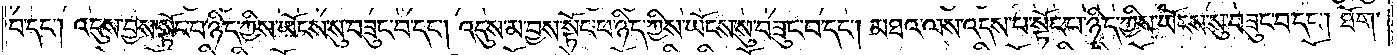བ་དང༌། འདུས་བྱས་སྟོང་པ་ཉིད་ཀྱིས་ཡོངས་སུ་བཟུང་བ་དང༌། འདུས་མ་བྱས་སྟོང་པ་ཉིད་ཀྱིས་ཡོངས་སུ་བཟུང་བ་དང༌། མཐའ་ལས་འདས་པ་སྟོང་པ་ཉིད་ཀྱིས་ཡོངས་སུ་བཟུང་བ་དང༌། ཐོག་
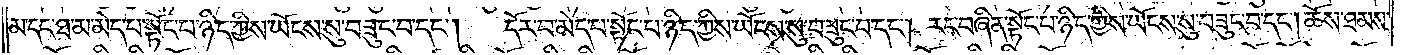མ་དང་ཐ་མ་མེད་པ་སྟོང་པ་ཉིད་ཀྱིས་ཡོངས་སུ་བཟུང་བ་དང༌། དོར་བ་མེད་པ་སྟོང་པ་ཉིད་ཀྱིས་ཡོངས་སུ་བཟུང་བ་དང༌། རང་བཞིན་སྟོང་པ་ཉིད་ཀྱིས་ཡོངས་སུ་བཟུང་བ་དང༌། ཆོས་ཐམས་
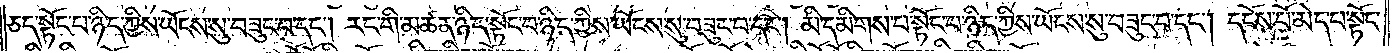ཅད་སྟོང་པ་ཉིད་ཀྱིས་ཡོངས་སུ་བཟུང་བ་དང༌། རང་གི་མཚན་ཉིད་སྟོང་པ་ཉིད་ཀྱིས་ཡོངས་སུ་བཟུང་བ་དང༌། མི་དམིགས་པ་སྟོང་པ་ཉིད་ཀྱིས་ཡོངས་སུ་བཟུང་བ་དང༌། དངོས་པོ་མེད་པ་སྟོང་
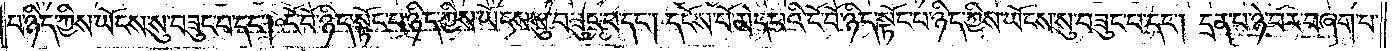པ་ཉིད་ཀྱིས་ཡོངས་སུ་བཟུང་བ་དང༌། ངོ་བོ་ཉིད་སྟོང་པ་ཉིད་ཀྱིས་ཡོངས་སུ་བཟུང་བ་དང༌། དངོས་པོ་མེད་པའི་ངོ་བོ་ཉིད་སྟོང་པ་ཉིད་ཀྱིས་ཡོངས་སུ་བཟུང་བ་དང༌། དྲན་པ་ཉེ་བར་བཞག་པ་
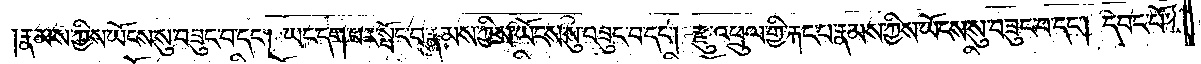རྣམས་ཀྱིས་ཡོངས་སུ་བཟུང་བ་དང༌། ཡང་དག་པར་སྤོང་བ་རྣམས་ཀྱིས་ཡོངས་སུ་བཟུང་བ་དང༌། རྫུ་འཕྲུལ་གྱི་རྐང་པ་རྣམས་ཀྱིས་ཡོངས་སུ་བཟུང་བ་དང༌། དབང་པོ་
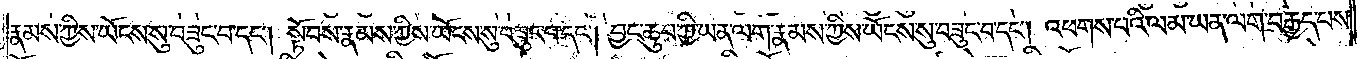རྣམས་ཀྱིས་ཡོངས་སུ་བཟུང་བ་དང༌། སྟོབས་རྣམས་ཀྱིས་ཡོངས་སུ་བཟུང་བ་དང༌། བྱང་ཆུབ་ཀྱི་ཡན་ལག་རྣམས་ཀྱིས་ཡོངས་སུ་བཟུང་བ་དང༌། འཕགས་པའི་ལམ་ཡན་ལག་བརྒྱད་པས་
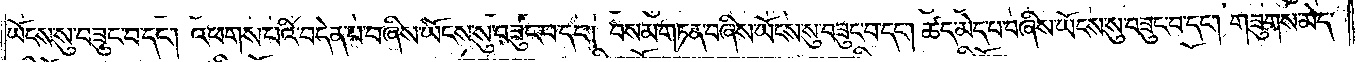ཡོངས་སུ་བཟུང་བ་དང༌། འཕགས་པའི་བདེན་པ་བཞིས་ཡོངས་སུ་བཟུང་བ་དང༌། བསམ་གཏན་བཞིས་ཡོངས་སུ་བཟུང་བ་དང༌། ཚད་མེད་པ་བཞིས་ཡོངས་སུ་བཟུང་བ་དང༌། གཟུགས་མེད་
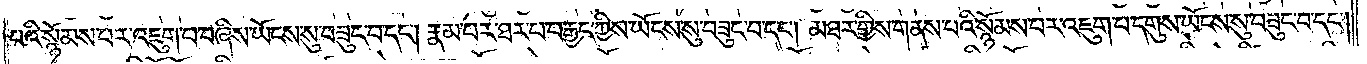པའི་སྙོམས་པར་འཇུག་པ་བཞིས་ཡོངས་སུ་བཟུང་བ་དང༌། རྣམ་པར་ཐར་པ་བརྒྱད་ཀྱིས་ཡོངས་སུ་བཟུང་བ་དང༌། མཐར་གྱིས་གནས་པའི་སྙོམས་པར་འཇུག་པ་དགུས་ཡོངས་སུ་བཟུང་བ་དང༌།
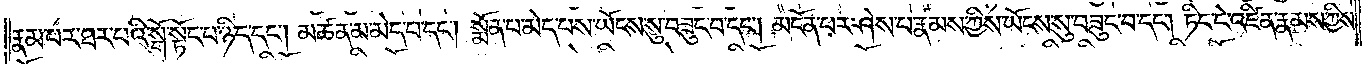རྣམ་པར་ཐར་པའི་སྒོ་སྟོང་པ་ཉིད་དང༌། མཚན་མ་མེད་པ་དང༌། སྨོན་པ་མེད་པས་ཡོངས་སུ་བཟུང་བ་དང༌། མངོན་པར་ཤེས་པ་རྣམས་ཀྱིས་ཡོངས་སུ་བཟུང་བ་དང༌། ཏིང་ངེ་འཛིན་རྣམས་ཀྱིས་
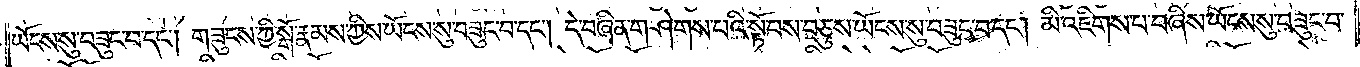ཡོངས་སུ་བཟུང་བ་དང༌། གཟུངས་ཀྱི་སྒོ་རྣམས་ཀྱིས་ཡོངས་སུ་བཟུང་བ་དང༌། དེ་བཞིན་གཤེགས་པའི་སྟོབས་བཅུས་ཡོངས་སུ་བཟུང་བ་དང༌། མི་འཇིགས་པ་བཞིས་ཡོངས་སུ་བཟུང་བ་
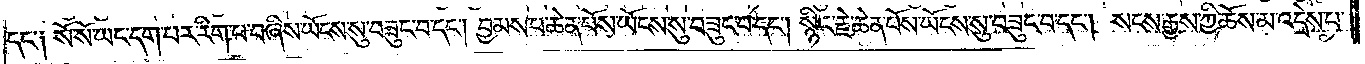དང༌། སོ་སོ་ཡང་དག་པར་རིག་པ་བཞིས་ཡོངས་སུ་བཟུང་བ་དང༌། བྱམས་པ་ཆེན་པོས་ཡོངས་སུ་བཟུང་བ་དང༌། སྙིང་རྗེ་ཆེན་པོས་ཡོངས་སུ་བཟུང་བ་དང༌། སངས་རྒྱས་ཀྱི་ཆོས་མ་འདྲེས་པ་
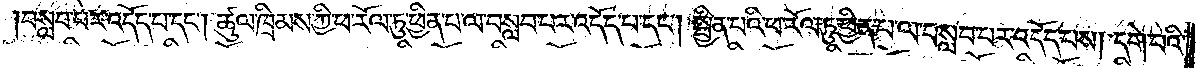བསླབ་པར་འདོད་པ་དང༌། ཚུལ་ཁྲིམས་ཀྱི་ཕ་རོལ་ཏུ་ཕྱིན་པ་ལ་བསླབ་པར་འདོད་པ་དང༌། སྦྱིན་པའི་ཕ་རོལ་ཏུ་ཕྱིན་པ་ལ་བསླབ་པར་འདོད་པས། དགེ་བའི་
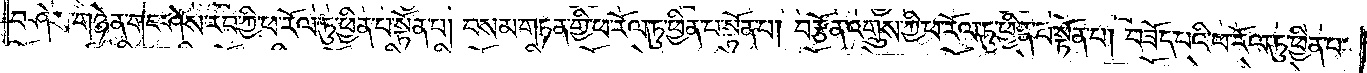བཤེས་གཉེན་གང་ཤེས་རབ་ཀྱི་ཕ་རོལ་ཏུ་ཕྱིན་པ་སྟོན་པ། བསམ་གཏན་གྱི་ཕ་རོལ་ཏུ་ཕྱིན་པ་སྟོན་པ། བརྩོན་འགྲུས་ཀྱི་ཕ་རོལ་ཏུ་ཕྱིན་པ་སྟོན་པ། བཟོད་པའི་ཕ་རོལ་ཏུ་ཕྱིན་པ་
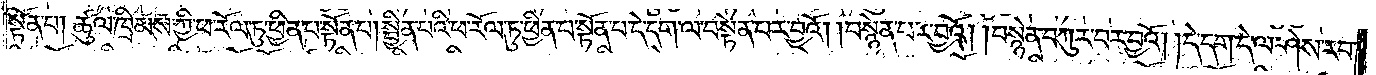སྟོན་པ། ཚུལ་ཁྲིམས་ཀྱི་ཕ་རོལ་ཏུ་ཕྱིན་པ་སྟོན་པ། སྦྱིན་པའི་ཕ་རོལ་ཏུ་ཕྱིན་པ་སྟོན་པ་དེ་དག་ལ་བསྟེན་པར་བྱའོ། །བསྙེན་པར་བྱའོ། །བསྙེན་བཀུར་བར་བྱའོ། །དེ་དག་དེ་ལ་ཤེས་རབ་
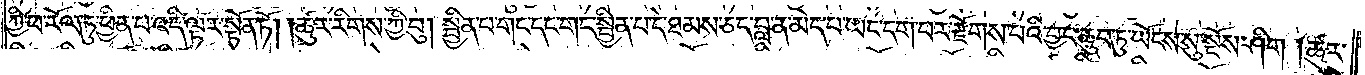ཀྱི་ཕ་རོལ་ཏུ་ཕྱིན་པ་འདི་ལྟར་སྟོན་ཏོ། །ཚུར་རིགས་ཀྱི་བུ། སྦྱིན་པ་གང་དང་གང་སྦྱིན་པ་དེ་ཐམས་ཅད་བླ་ན་མེད་པ་ཡང་དག་པར་རྫོགས་པའི་བྱང་ཆུབ་ཏུ་ཡོངས་སུ་སྔོས་ཤིག །ཚུར་
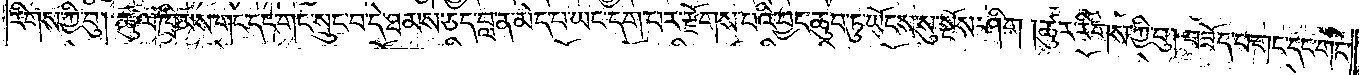རིགས་ཀྱི་བུ། ཚུལ་ཁྲིམས་གང་དང་གང་སྲུང་བ་དེ་ཐམས་ཅད་བླ་ན་མེད་པ་ཡང་དག་པར་རྫོགས་པའི་བྱང་ཆུབ་ཏུ་ཡོངས་སུ་སྔོས་ཤིག །ཚུར་རིགས་ཀྱི་བུ། བཟོད་པ་གང་དང་གང་
